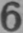6
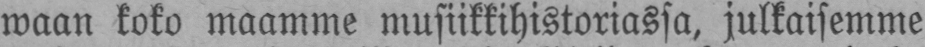maan koko maamme musiikkihistoriassa, julkaisemme
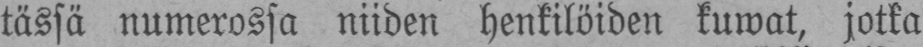tässä numerossa niiden henkilöiden kuwat, jotka
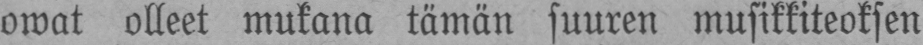owat olleet mukana tämän suuren musikkiteoksen
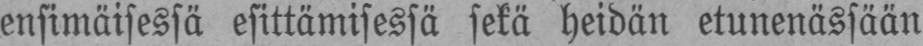ensimäisessä esittämisessä sekä heidän etunenässään
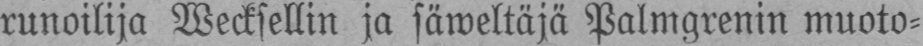runoilija Wecksellin ja säweltäjä Palmgrenin muoto-
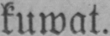kuwat.
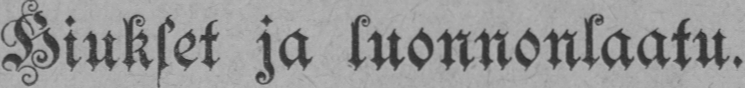Hiukset ja luonnonlaatu.
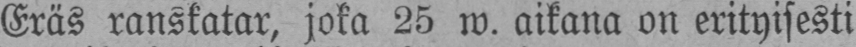Eräs ranskatar, joka 25 w. aikana on erityisesti
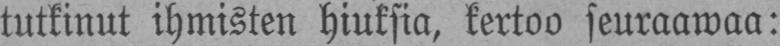tutkinut ihmisten hiuksia, kertoo seuraawaa:
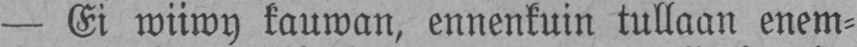— Ei wiiwy kauwan, ennenkuin tullaan enem-
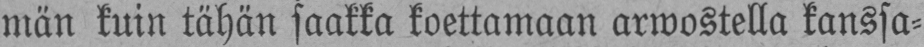män kuin tähän saakka koettamaan arwostella kanssa-
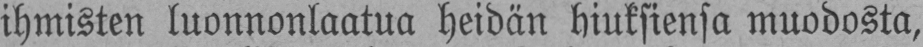ihmisten luonnonlaatua heidän hiuksiensa muodosta,
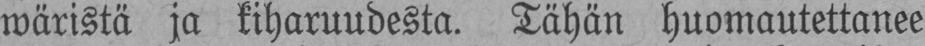wäristä ja kiharuudesta. Tähän huomautettanee
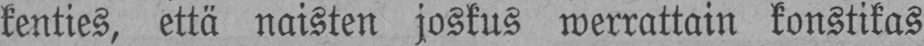kenties, että naisten joskus werrattain konstikas
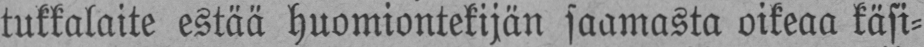tukkalaite estää huomiontekijän saamasta oikeaa käsi-
